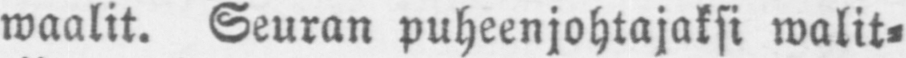waalit. Seuran puheenjohtajaksi walit-
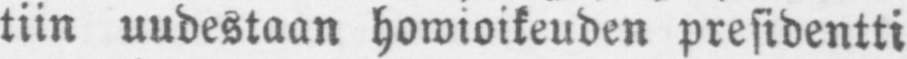tiin uudestaan howioikeuden presidentti
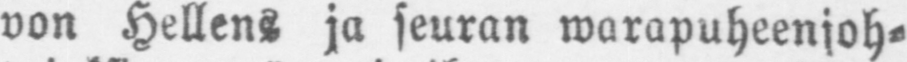von Hellens ja seuran warapuheenjoh-
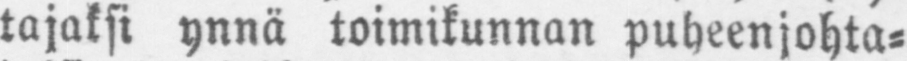tajaksi ynnä toimikunnan puheenjohta-
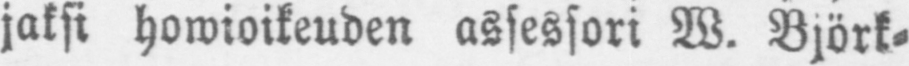jaksi howioikeuden assessori W. Björk-
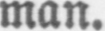man.
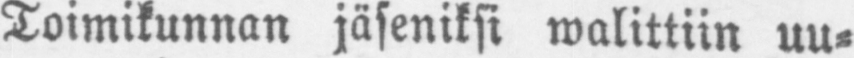Toimikunnan jäseniksi walittiin uu-
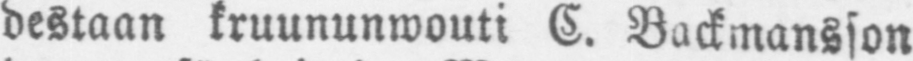destaan kruununwouti C. Backmansson
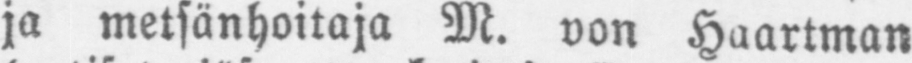ja metsänhoitaja M. von Haartman
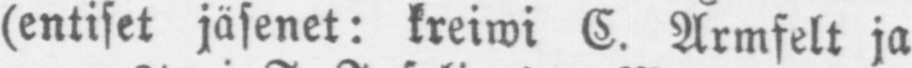(entiset jäsenet: kreiwi C. Armfelt ja
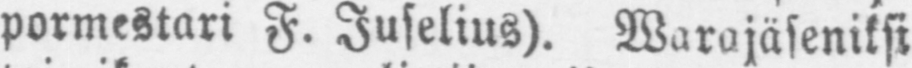pormestari F. Juselius). Warajäseniksi
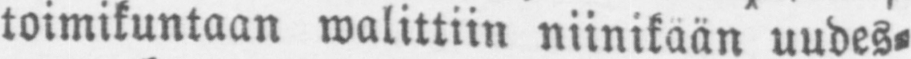toimikuntaan walittiin niinikään uudes-
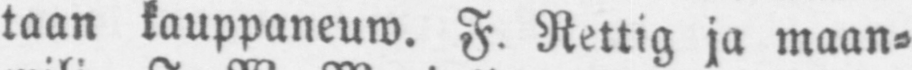taan kauppaneuw. F. Rettig ja maan-
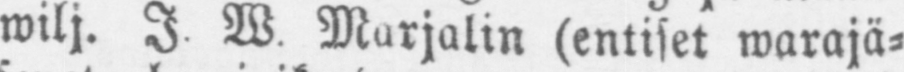wilj. I. W. Marjalin (entiset warajä-
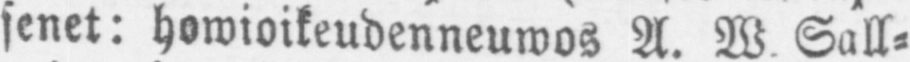senet: howioikeudenneuwos A. W. Sall-
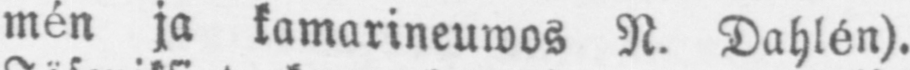mén ja kamarineuwos N. Dahlén).
